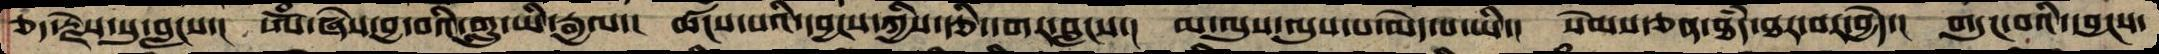ཅད་རྗེས་སུ་བླངས་།  ཨོཾ་ཞེས་བྱ་བའི་གླུ་ཡི་རྒྱལ་།  ཚངས་པའི་དབྱངས་ཀྱིས་རྩི་དགར་བླངས་།  མ་ལུས་ལུས་པ་མེད་པ་ཡི་།  སེམས་ཅན་ཐཾད་ཐར་བར་བྱེད་།  གདུང་བའི་དབྱངས་
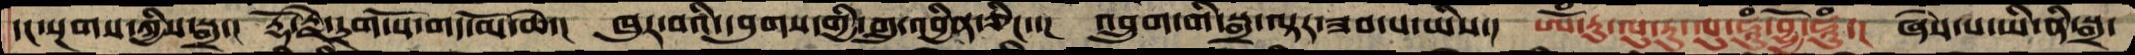དང་སྔགས་ཀྱིས་སྒྲ་།  རྡོ་རྗེ་དྲག་པོ་གད་མོ་ཆེ་།  ཁུར་བའི་དབུགས་གྱི་གླུ་འབྱིན་ཅིང་།  འབྲུག་གི་སྒྲ་ལྟར་ཟབ་པ་ཡིས་།  ཨོཾ་རུ་ལུ་རུ་ལུ་ཧཱུཾ་བྷྱོ་ཧཱུཾ་།  ཞེས་པ་ཡི་ནི་སྒྲ་
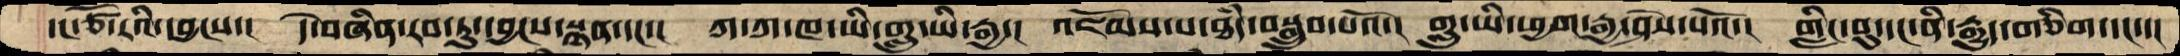་།་ཙོ་རའི་དབྱངས་།  དེ་བཞིན་རབ་ཏུ་དབྱངས་སྙན་དང་་།  ཀ་ཀ་ཁ་ཡི་གླུ་ཡི་རྒྱ་།  འཇོམས་པ་ཐཾད་བསྒྲུབ་པའོ་།  གླུ་ཡི་ཕྱག་རྒྱ་ཤེས་པའོ་།  གླིང་བུ་དང་ནི་རྒྱུད་གཅིག་དང་་།
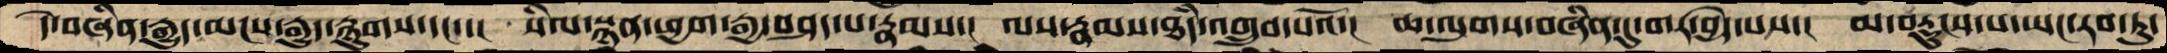དེ་བཞིན་རྒྱུད་མངས་རྒྱུད་སྙུགས་དང་་།  སིལསྙན་ཕྱག་རྒྱ་བཤད་པ་རྣམས་།  ལས་རྣམས་ཐཾད་འགྲུབ་པའོ་།  ཆ་ལུགས་བཞིན་དུ་གར་བྱེད་པས་།  མ་བརྡུངས་པ་ཡང་རབ་ཏུ་
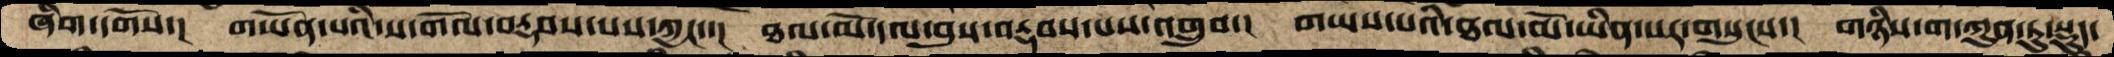ཞིག་དགོས་།  གཡོན་པའི་ས་གོལ་བརྡབས་པས་ཀྱང་་།  ཐལ་མོ་དལ་བུས་བརྡབས་པས་འགྲུབ་།  གཡས་པའི་ཐལ་མོ་ཡིན་པར་གསུངས་།  གཉིས་ག་ཀུན་ཏུ་སྡུད་
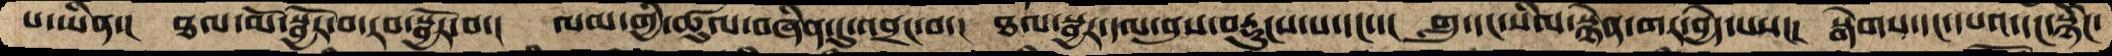པ་ཡིན་།  ཐལ་མོ་སྦྱོར་བ་རབ་སྦྱོར་བ་།  ལམ་གྱི་ཚུལ་བཞིན་དུ་འབྲང་བ་།  ཐལ་སྦྱར་དལ་བུས་བརྡུངས་པ་དང་་།  གླུ་དང་སིལ་སྙེན་གར་བྱེད་པས་།  སྒེགས་དང་དཔའ་དང་སྙིང་
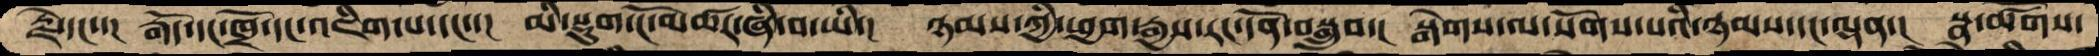རྗེ་དང་།  རྒོད་དང་ཁྲོ་དང་འཇིག་པ་དང་་།  མི་སྡུག་ངོ་མཚར་ཞི་བ་ཡི་།  ཉམས་ཀྱི་ཕྱག་རྒྱས་རང་དོན་བསྒྲུབ་།  སྒེགས་ལ་སོགས་པའི་ཉམས་དང་ལྡན་།  སྣ་ཚོགས་
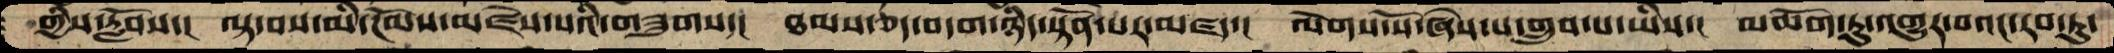གྱིས་རློབས་།  ལྟ་བས་མི་ངོམས་མཛེས་པའི་གཟུགས་།  ཐམས་ཅད་བདག་ཉིད་སྟོན་པར་མཛད་།   ལོགས་སོ་ཞེས་པ་གྲུབ་པ་ཡིས་།  མཆོག་ཏུ་འགྱུར་བའང་རབ་ཏུ་
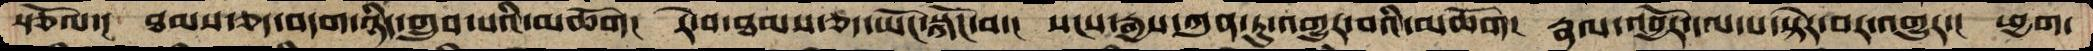སྩོལ་།  ཐམས་ཅད་བདག་ཉིད་གྲུབ་པའི་མཆོག།  རེ་བ་ཐམས་ཅད་ཡོང་སྐོང་བ་།  སངས་རྒྱས་ཀུན་ཏུ་འགྱུར་བའི་མཆོག།  རྣལ་འབྱོར་དལ་པ་སྟེར་བར་འགྱུར་།  ཕྱག་
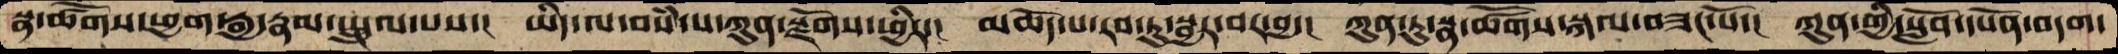སྣ་ཚོགས་ཕྱག་རྒྱ་རྣམ་སྤྲུལ་པས་།  ཡིད་ལ་བསཾ་པ་ཀུན་སྫོགས་ཕྱིར་།  མཆོད་པ་རབ་ཏུ་སྦྱར་བར་བྱ་།  ཀུན་ཏུ་སྣ་ཚོགས་སྐལ་བཟང་པོ་།  ཀུན་གྱི་སློབ་དཔོན་བདག་
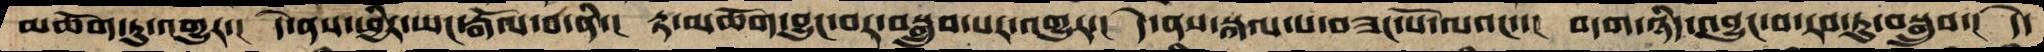མཆོག་ཏུ་འགྱུར་།  དེ་ནས་ཕྱིར་ཡང་རྒོལ་བ་ནི་།  རྟ་མཆོག་བྱུང་བར་བསྒྲུབ་པར་འགྱུར་།  དེ་ནས་སྐལ་པ་བཟང་པོ་ལའང་་།  བདག་ཉིད་འབྱུང་བ་རབ་ཏུ་བསྒྲུབ་།  དེ་
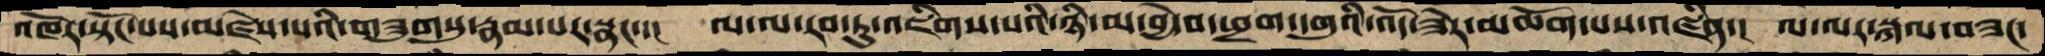འཁོར་སྟོང་པས་མཛེས་པའི་གཟུགསུ་རྣམ་པར་སྣང་་།  ལ་ལ་རབ་ཏུ་འཇིགས་པའི་ཉི་མ་བྱེ་བ་ཕྲག་དགུའི་འོད་ཟེར་མཆོག་པས་འཛིན་།  ལ་ལར་སྐལ་བཟང་
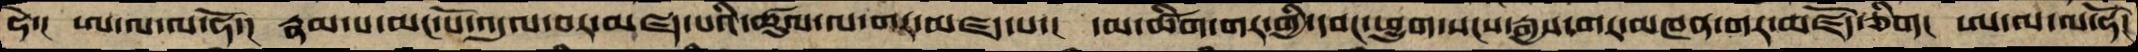ཧེ་།  ཨ་ལ་ལ་ཧོ་།  རྣམ་པ་མང་པོ་འདུལ་བར་མཛད་པའི་ཚུལ་ལ་གར་མཛད་པ་།  དམ་ཚིག་གར་གྱི་དབང་ཕྱུག་སངས་རྒྱས་གར་མཁན་གར་མཛོད་ཅིག།  ཨ་ལ་ལ་ཧོ།
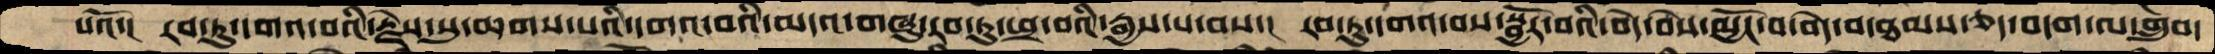པའོ་།  རབ་ཏུ་དགའ་བའི་རྗེས་སུ་ཆགས་པའི་དགའ་བའི་མདའ་གཞུ་རབ་ཏུ་ཕྲ་བའི་རྒྱས་པ་བས་།  རབ་ཏུ་དགའ་བས་སྦྱོར་བའི་བདེ་བེས་མྱོང་བ་བདེ་བ་ཐམས་ཅད་བདག་ལ་གྲུབ་
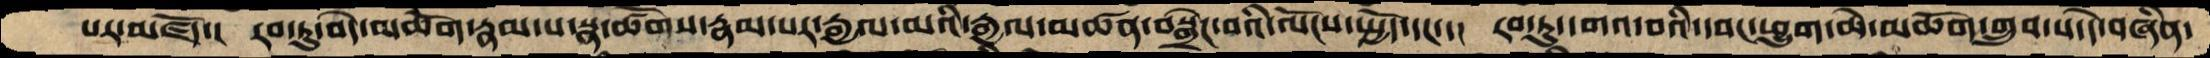པར་མཛོད་།  རབ་ཏུ་བདེ་མཆོག་རྣམ་པ་སྣ་ཚོགས་རྣམ་པར་རྒྱལ་མའི་རྒྱལ་མཚན་བསྒྲེང་བའི་ལོངས་སྤྱོད་དང་་།  རབ་ཏུ་དགའ་བའི་དབང་ཕྱུག་ཆེ་མཆོག་གྲུབ་པ་དེ་བཞིན་
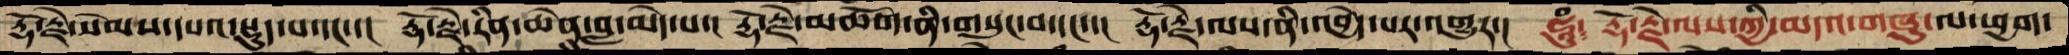རྡོ་རྗེ་སེམས་དཔའ་སྡུད་པ་དང་་།  རྡོ་རྗེ་རིན་ཆེན་བླ་མེད་པ་།  རྡོ་རྗེ་མཆོག་ནི་གསུང་བ་དང་་།  རྡོ་རྗེ་ལས་ནི་འབྱེད་པར་འགྱུར་།  ཧཱུཾ༴ རྡོ་རྗེ་ལས་ཀྱི་མདའ་གཞུ་ལ་ཕྱག་
